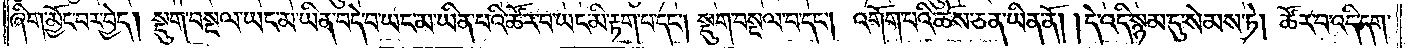ཞིག་མྱོང་བར་བྱེད། སྡུག་བསྔལ་ཡང་མ་ཡིན་བདེ་བ་ཡང་མ་ཡིན་པའི་ཚོར་བ་ཡང་མི་རྟག་པ་དང༌། སྡུག་བསྔལ་བ་དང༌། འགོག་པའི་ཆོས་ཅན་ཡིན་ནོ། །དེ་འདི་སྙམ་དུ་སེམས་ཏེ། ཚོར་བ་འདི་དག་
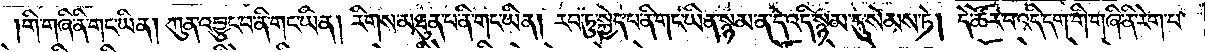གི་གཞི་ནི་གང་ཡིན། ཀུན་འབྱུང་བ་ནི་གང་ཡིན། རིགས་མཐུན་པ་ནི་གང་ཡིན། རབ་ཏུ་སྐྱེད་པ་ནི་གང་ཡིན་སྙམ་ན་དེ་འདི་སྙམ་དུ་སེམས་ཏེ། དེ་ཚོར་བ་འདི་དག་གི་གཞི་ནི་རེག་པ་
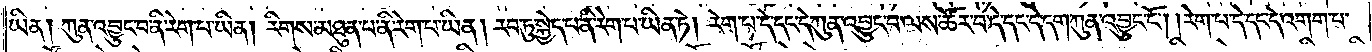ཡིན། ཀུན་འབྱུང་བ་ནི་རེག་པ་ཡིན། རིགས་མཐུན་པ་ནི་རེག་པ་ཡིན། རབ་ཏུ་སྐྱེད་པ་ནི་རེག་པ་ཡིན་ཏེ། རེག་པ་དེ་དང་དེ་ཀུན་འབྱུང་བ་ལས་ཚོར་བ་དེ་དང་དེ་དག་ཀུན་འབྱུང་ངོ༌། །རེག་པ་དེ་དང་དེ་འགག་པ་
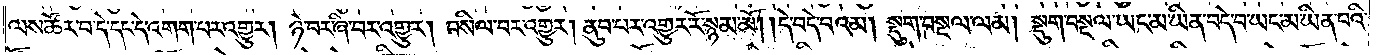ལས་ཚོར་བ་དེ་དང་དེ་འགག་པར་འགྱུར། ཉེ་བར་ཞི་བར་འགྱུར། བསིལ་བར་འགྱུར། ནུབ་པར་འགྱུར་རོ་སྙམ་མོ། །དེ་བདེ་བའམ། སྡུག་བསྔལ་ལམ། སྡུག་བསྔལ་ཡང་མ་ཡིན་བདེ་བ་ཡང་མ་ཡིན་པའི་
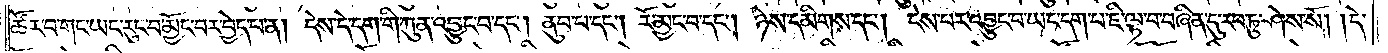ཚོར་བ་གང་ཡང་རུང་བ་མྱོང་བར་བྱེད་པ་ན། དེས་དེ་དག་གི་ཀུན་འབྱུང་བ་དང༌། ནུབ་པ་དང༌། རོ་མྱང་བ་དང༌། ཉེས་དམིགས་དང༌། ངེས་པར་འབྱུང་བ་ཡང་དག་པ་ཇི་ལྟ་བ་བཞིན་དུ་རབ་ཏུ་ཤེས་སོ། །དེ་
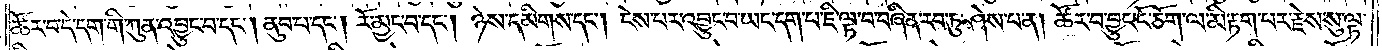ཚོར་བ་དེ་དག་གི་ཀུན་འབྱུང་བ་དང༌། ནུབ་པ་དང༌། རོ་མྱང་བ་དང༌། ཉེས་དམིགས་དང༌། ངེས་པར་འབྱུང་བ་ཡང་དག་པ་ཇི་ལྟ་བ་བཞིན་རབ་ཏུ་ཤེས་པ་ན། ཚོར་བ་བྱུང་ངོ་ཅོག་ལ་མི་རྟག་པར་རྗེས་སུ་ལྟ་
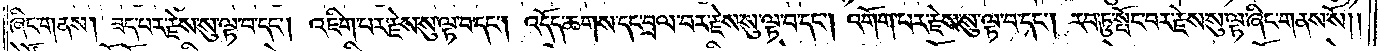ཞིང་གནས། ཟད་པར་རྗེས་སུ་ལྟ་བ་དང༌། འཇིག་པར་རྗེས་སུ་ལྟ་བ་དང༌། འདོད་ཆགས་དང་བྲལ་བར་རྗེས་སུ་ལྟ་བ་དང༌། འགོག་པར་རྗེས་སུ་ལྟ་བ་དང༌། རབ་ཏུ་སྤོང་བར་རྗེས་སུ་ལྟ་ཞིང་གནས་སོ༎
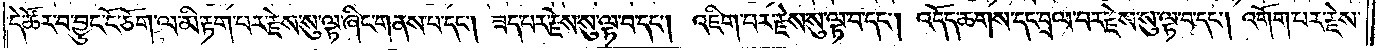དེ་ཚོར་བ་བྱུང་ངོ་ཅོག་ལ་མི་རྟག་པར་རྗེས་སུ་ལྟ་ཞིང་གནས་པ་དང༌། ཟད་པར་རྗེས་སུ་ལྟ་བ་དང༌། འཇིག་པར་རྗེས་སུ་ལྟ་བ་དང༌། འདོད་ཆགས་དང་བྲལ་བར་རྗེས་སུ་ལྟ་བ་དང༌། འགོག་པར་རྗེས་
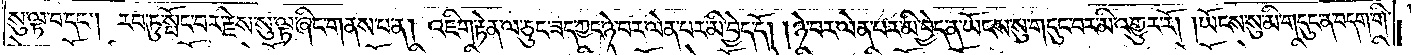སུ་ལྟ་བ་དང༌། རབ་ཏུ་སྤོང་བར་རྗེས་སུ་ལྟ་ཞིང་གནས་པ་ན། འཇིག་རྟེན་ལ་ཅུང་ཟད་ཀྱང་ཉེ་བར་ལེན་པར་མི་བྱེད་དོ། །ཉེ་བར་ལེན་པར་མི་བྱེད་ན་ཡོངས་སུ་གདུང་བར་མི་འགྱུར་རོ། །ཡོངས་སུ་མི་གདུང་ན་བདག་གི་
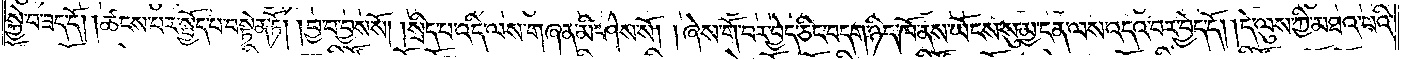སྐྱེ་བ་ཟད་དོ། །ཚངས་པར་སྤྱོད་པ་བསྟེན་ཏོ། །བྱ་བ་བྱས་སོ། །སྲིད་པ་འདི་ལས་གཞན་མི་ཤེས་སོ། །ཞེས་གོ་བར་བྱེད་ཅིང་བདག་ཉིད་ཁོ་ནས་ཡོངས་སུ་མྱ་ངན་ལས་འདའ་བར་བྱེད་དོ། །དེ་ལུས་ཀྱི་མཐའ་པའི་
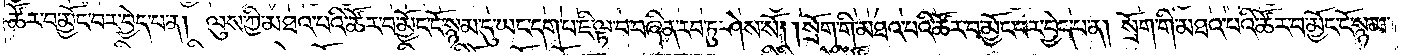ཚོར་བ་མྱོང་བར་བྱེད་པ་ན། ལུས་ཀྱི་མཐའ་པའི་ཚོར་བ་མྱོང་ངོ་སྙམ་དུ་ཡང་དག་པ་ཇི་ལྟ་བ་བཞིན་རབ་ཏུ་ཤེས་སོ། །སྲོག་གི་མཐའ་པའི་ཚོར་བ་མྱོང་བར་བྱེད་པ་ན། སྲོག་གི་མཐའ་པའི་ཚོར་བ་མྱོང་ངོ་སྙམ་
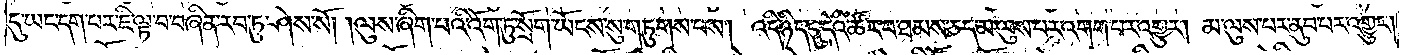དུ་ཡང་དག་པར་ཇི་ལྟ་བ་བཞིན་རབ་ཏུ་ཤེས་སོ། །ལུས་ཞིག་པའི་འོག་ཏུ་སྲོག་ཡོངས་སུ་གཏུགས་པས། འདི་ཉིད་དུ་དེའི་ཚོར་བ་ཐམས་ཅད་མ་ལུས་པར་འགག་པར་འགྱུར། མ་ལུས་པར་ནུབ་པར་འགྱུར།
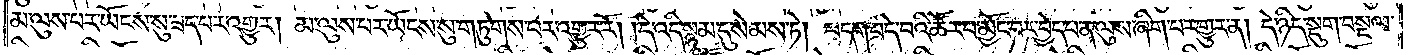མ་ལུས་པར་ཡོངས་སུ་ཟད་པར་འགྱུར། མ་ལུས་པར་ཡོངས་སུ་གཏུགས་པར་འགྱུར་རོ། །དེ་འདི་སྙམ་དུ་སེམས་ཏེ། བདག་བདེ་བའི་ཚོར་བ་མྱོང་བར་བྱེད་པ་ན་ལུས་ཞིག་པར་གྱུར་ན། དེ་ཉིད་སྡུག་བསྔལ་
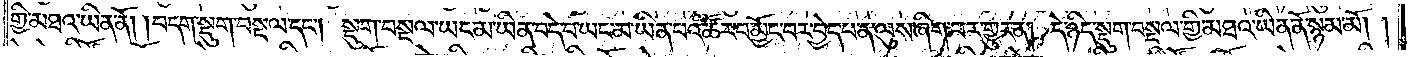གྱི་མཐའ་ཡིན་ནོ། །བདག་སྡུག་བསྔལ་དང༌། སྡུག་བསྔལ་ཡང་མ་ཡིན་བདེ་བ་ཡང་མ་ཡིན་པའི་ཚོར་བ་མྱོང་བར་བྱེད་པ་ན་ལུས་ཞིག་པར་གྱུར་ན། དེ་ཉིད་སྡུག་བསྔལ་གྱི་མཐའ་ཡིན་ནོ་སྙམ་མོ། །
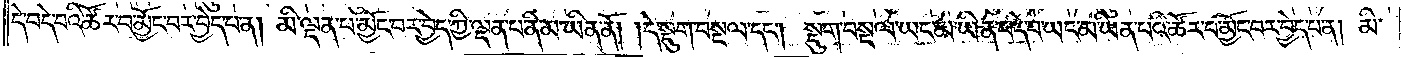དེ་བདེ་བའི་ཚོར་བ་མྱོང་བར་བྱེད་པ་ན། མི་ལྡན་པ་མྱོང་བར་བྱེད་ཀྱི་ལྡན་པ་ནི་མ་ཡིན་ནོ། །དེ་སྡུག་བསྔལ་དང༌། སྡུག་བསྔལ་ཡང་མ་ཡིན་བདེ་བ་ཡང་མ་ཡིན་པའི་ཚོར་བ་མྱོང་བར་བྱེད་པ་ན། མི་
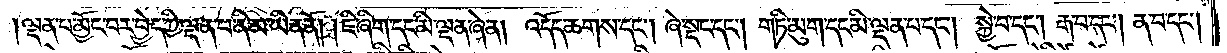ལྡན་པ་མྱོང་བར་བྱེད་ཀྱི་ལྡན་པ་ནི་མ་ཡིན་ནོ། །ཇི་ཞིག་དང་མི་ལྡན་ཞེ་ན། འདོད་ཆགས་དང༌། ཞེ་སྡང་དང༌། གཏི་མུག་དང་མི་ལྡན་པ་དང༌། སྐྱེ་བ་དང༌། རྒ་བ་དང༌། ན་བ་དང༌།
